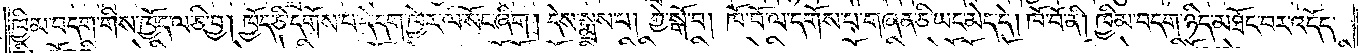ཁྱིམ་བདག་གིས་ཁྱོད་ལ་ཅི་བྱ། ཁྱོད་ཅི་དགོས་པ་དེ་དག་ཁྱེར་ལ་སོང་ཞིག །དེས་སྨྲས་པ། ཀྱེ་སྒོ་བ། ཁོ་བོ་ལ་དགོས་པ་གཞན་ཅི་ཡང་མེད་དེ། ཁོ་བོ་ནི། ཁྱིམ་བདག་ཉིད་མཐོང་བར་འདོད་
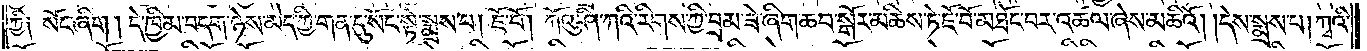ཀྱི༑ སོང་ཞིག །དེ་ཁྱིམ་བདག་ཉེས་མེད་ཀྱི་གན་དུ་སོང་སྟེ་སྨྲས་པ། ཇོ་བོ། ཀོའུ་ཤི་ཀའི་རིགས་ཀྱི་བྲམ་ཟེ་ཞིག་ཆབ་སྒོར་མཆིས་ཏེ་ཇོ་བོ་མཐོང་བར་འཚལ་ཞེས་མཆིའོ། །དེས་སྨྲས་པ། ཀྭའི་
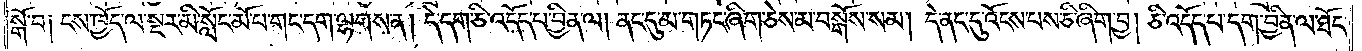སྒོ་བ། ངས་ཁྱོད་ལ་སྔར་མི་སློང་མོ་པ་གང་དག་ལྷགས་ན། དེ་དག་ཅི་འདོད་པ་བྱིན་ལ། ནང་དུ་མ་གཏང་ཞིག་ཅེས་མ་བསྒོས་སམ། དེ་ནང་དུ་འོངས་པས་ཅི་ཞིག་བྱ། ཅི་འདོད་པ་དག་བྱིན་ལ་ཐོང་
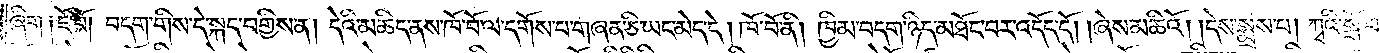ཞིག །ཇོ་བོ། བདག་གིས་དེ་སྐད་བགྱིས་ན། དེའི་མཆིད་ནས་ཁོ་བོ་ལ་དགོས་པ་གཞན་ཅི་ཡང་མེད་དེ། ཁོ་བོ་ནི། ཁྱིམ་བདག་ཉིད་མཐོང་བར་འདོད་དོ། །ཞེས་མཆིའོ། །དེས་སྨྲས་པ། ཀྭའི་སྒོ་བ།
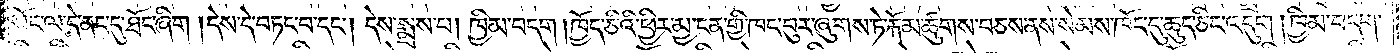སོང་ལ་དེ་ནང་དུ་ཐོང་ཞིག །དེས་དེ་བཏང་བ་དང༌། དེས་སྨྲས་པ། ཁྱིམ་བདག །ཁྱོད་ཅིའི་ཕྱིར་མྱ་ངན་གྱི་ཁང་བུར་ཞུགས་ཏེ་རྐོམ་ཚུགས་བཅས་ནས་སེམས་ཁོང་དུ་ཆུད་ཅིང་འདུག །ཁྱིམ་བདག་
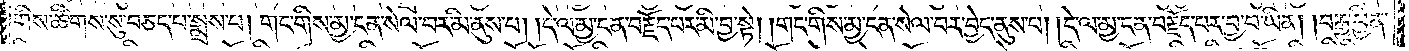གིས་ཚིགས་སུ་བཅད་པ་སྨྲས་པ། གང་གིས་མྱ་ངན་སེལ་བར་མི་ནུས་པ། དེ་ལ་མྱ་ངན་བརྗོད་པར་མི་བྱ་སྟེ། གང་གིས་མྱ་ངན་སེལ་བར་བྱེད་ནུས་པ། དེ་ལ་མྱ་ངན་བརྗོད་པར་བྱ་བ་ཡིན། བརྒྱ་བྱིན་
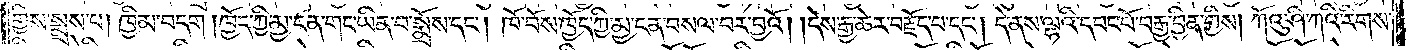གྱིས་སྨྲས་པ། ཁྱིམ་བདག །ཁྱོད་ཀྱི་མྱ་ངན་གང་ཡིན་པ་སྨྲོས་དང༌། ཁོ་བོས་ཁྱོད་ཀྱི་མྱ་ངན་བསལ་བར་བྱའོ། །དེས་རྒྱ་ཆེར་བརྗོད་པ་དང༌། དེ་ནས་ལྷའི་དབང་པོ་བརྒྱ་བྱིན་གྱིས། ཀོའུ་ཤི་ཀའི་རིགས་
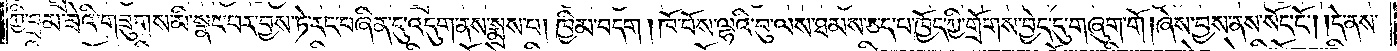ཀྱི་བྲམ་ཟེའི་གཟུགས་མི་སྣང་བར་བྱས་ཏེ་རང་བཞིན་དུ་འདུག་ནས་སྨྲས་པ། ཁྱིམ་བདག །ཁོ་བོས་ལྷའི་བུ་ལས་ཐམས་ཅད་པ་ཁྱོད་ཀྱི་གྲོགས་བྱེད་དུ་གཞུག་གོ །ཞེས་བྱས་ནས་སོང་ངོ༌། །དེ་ནས་
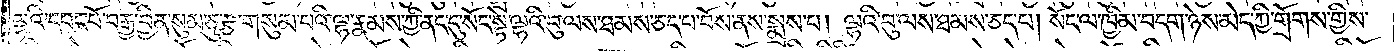ལྷའི་དབང་པོ་བརྒྱ་བྱིན་སུམ་ཅུ་རྩ་གསུམ་པའི་ལྷ་རྣམས་ཀྱི་ནང་དུ་སོང་སྟེ་ལྷའི་བུ་ལས་ཐམས་ཅད་པ་བོས་ནས་སྨྲས་པ། ལྷའི་བུ་ལས་ཐམས་ཅད་པ། སོང་ལ་ཁྱིམ་བདག་ཉེས་མེད་ཀྱི་གྲོགས་གྱིས་
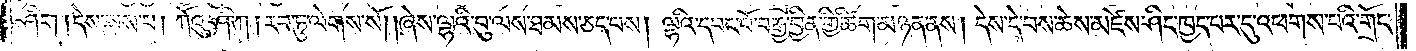ཤིག །དེས་སྨྲས་པ། ཀོའུ་ཤི་ཀ། རབ་ཏུ་ལེགས་སོ། །ཞེས་ལྷའི་བུ་ལས་ཐམས་ཅད་བས། ལྷའི་དབང་པོ་བརྒྱ་བྱིན་གྱི་ཚིག་མཉན་ནས། དེས་དེ་བས་ཆེས་མཛེས་ཤིང་ཁྱད་པར་དུ་འཕགས་པའི་གྲོང་
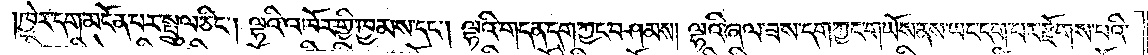ཁྱེར་དག་མངོན་པར་སྤྲུལ་ཅིང༌། ལྷའི་འཁོར་གྱི་ཁྱམས་དང༌། ལྷའི་གདན་དག་ཀྱང་བཤམས། ལྷའི་ཞལ་ཟས་དག་ཀྱང་གཡོས་ནས་ཡང་དག་པར་རྫོགས་པའི་
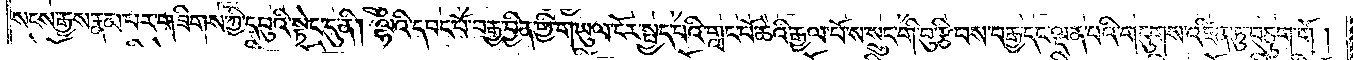སངས་རྒྱས་རྣམ་པར་གཟིགས་ཀྱི་དབུའི་སྟེང་དུ་ནི། ལྷའི་དབང་པོ་བརྒྱ་བྱིན་གྱི་གཡུལ་ངོར་སྤྱད་པའི་གླང་པོ་ཆེའི་རྒྱལ་པོ་ས་སྲུང་གི་བུ་རྩིབས་བརྒྱ་དང་ལྡན་པའི་གདུགས་འཛིན་ཏུ་བཅུག་གོ །
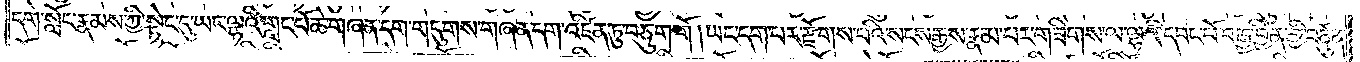དགེ་སློང་རྣམས་ཀྱི་སྟེང་དུ་ཡང་ལྷའི་གླང་པོ་ཆེ་གཞན་དག་གདུགས་གཞན་དག་འཛིན་ཏུ་བཅུག་གོ ། ཡང་དག་པར་རྫོགས་པའི་སངས་རྒྱས་རྣམ་པར་གཟིགས་ལ་ལྷའི་དབང་པོ་བརྒྱ་བྱིན་གྱི་བཙུན་
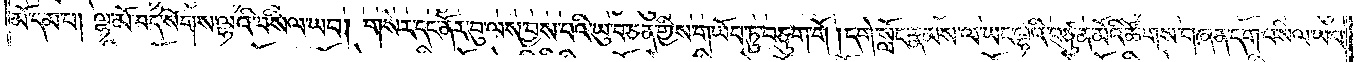མོ་དམ་པ། ལྷ་མོ་བདེ་སོགས་ལྷའི་བསིལ་ཡབ། གསེར་དང་ནོར་བུ་ལས་བྱས་པའི་ཡུ་བ་ཅན་གྱིས་གཡོབ་ཏུ་བཅུག་གོ ། དགེ་སློང་རྣམས་ལ་ཡང་ལྷའི་བཙུན་མོའི་ཚོགས་གཞན་དག་པ་སིལ་ཡབ་
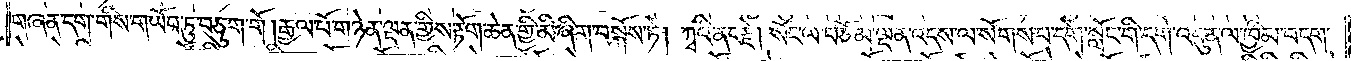གཞན་དག་གིས་གཡོབ་ཏུ་བཅུག་གོ །རྒྱལ་པོ་གཉེན་ལྡན་གྱིས་རྟོག་ཆེན་གྱི་མི་ཞིག་བསྐོས་ཏེ། ཀྭའི་ནང་རྗེ། སོང་ལ་བཅོམ་ལྡན་འདས་ལ་སོགས་པ་དགེ་སློང་གི་དགེ་འདུན་ལ་ཁྱིམ་བདག་
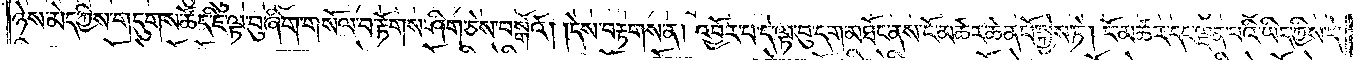ཉེས་མེད་ཀྱིས་གདུགས་ཚོད་ཇི་ལྟ་བུ་ཞིག་གསོལ་བ་རྟོགས་ཤིག་ཅེས་བསྒོའོ། །དེས་བརྟགས་ན། འབྱོར་པ་དེ་ལྟ་བུ་དག་མཐོང་ནས་ངོ་མཚར་ཆེན་པོ་སྐྱེས་ཏེ། ངོ་མཚར་དང་ལྡན་པའི་ཡིད་ཀྱིས་དེ་
